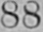88
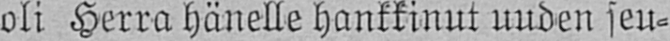oli Herra hänelle hankkinut uuden seu-
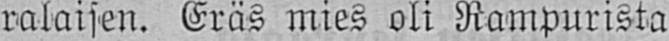ralaisen. Eräs mies oli Rampurista
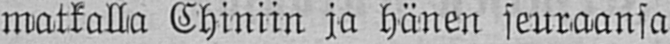matkalla Chiniin ja hänen seuraansa
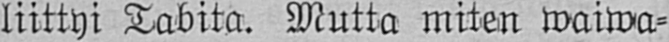liittyi Tabita. Mutta miten waiwa-
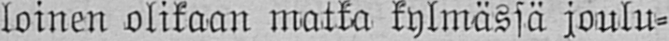loinen olikaan matka kylmässä joulu-
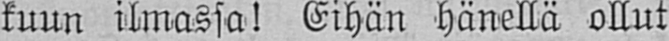kuun ilmassa! Eihän hänellä ollut
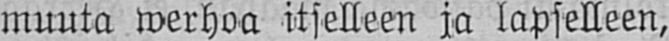muuta werhoa itselleen ja lapselleen,
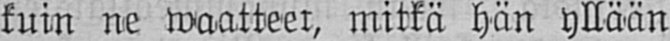kuin ne waatteet, mitkä hän yllään
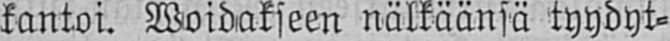kantoi. Woidakseen nälkäänsä tyydyt-
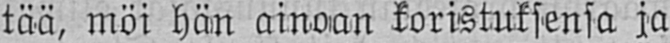tää, möi hän ainoan koristuksensa ja
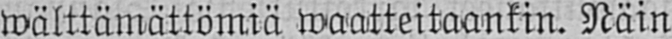wälttämättömiä waatteitaankin. Näin
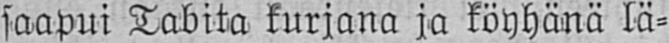saapui Tabita kurjana ja köyhänä lä-
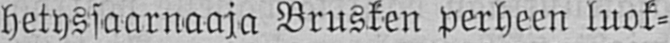hetyssaarnaaja Brusken perheen luok-
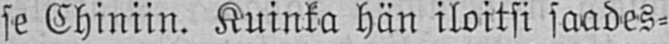se Chiniin. Kuinka hän iloitsi saades-
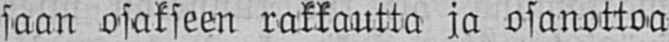saan osakseen rakkautta ja osanottoa
